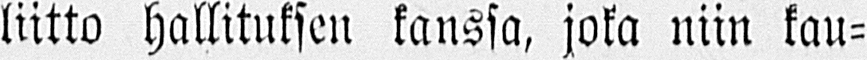liitto hallituksen kanssa, joka niin kau-
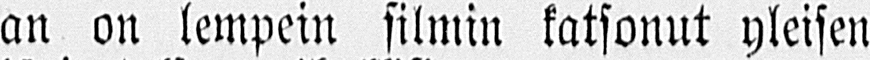an on lempein silmin katsonut yleisen
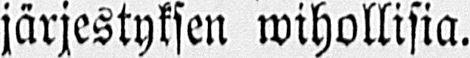järjestyksen wihollisia.
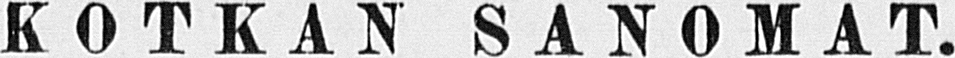KOTKAN SANOMAT.
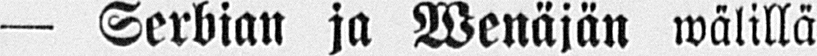— Serbian ja Wenäjän wälillä
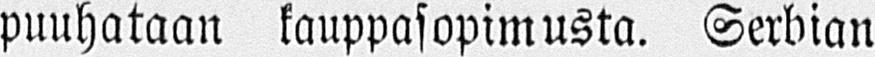puuhataan kauppasopimusta. Serbian
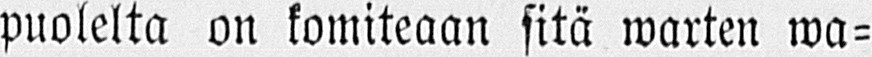puolelta on komiteaan sitä warten wa-
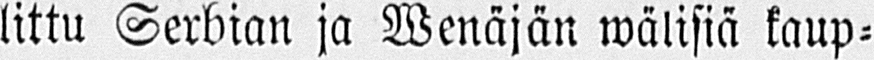littu Serbian ja Wenäjän wälisiä kaup-
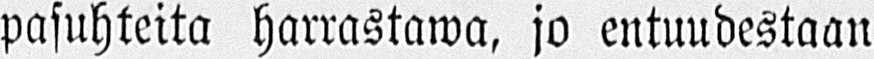pasuhteita harrastawa, jo entuudestaan
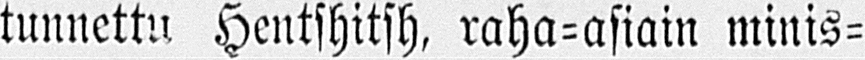tunnettu Hentshitsh, raha-asiain minis-
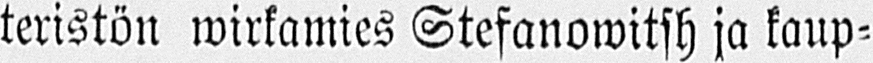teristön wirkamies Stefanowitsh ja kaup-
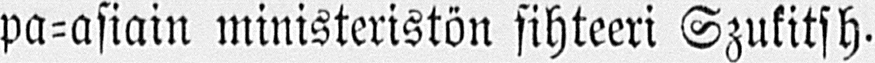pa-asiain ministeristön sihteeri Szukitsh-
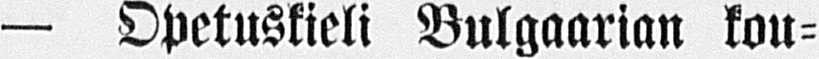— Opetuskieli Bulgaarian kou-
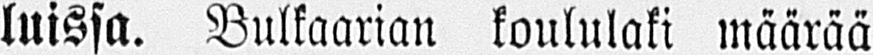luissa. Bulkaarian koululaki määrää
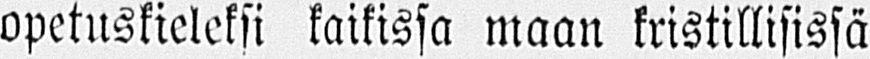opetuskieleksi kaikissa maan kristillisissä
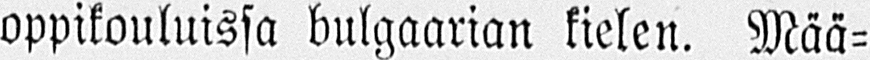oppikouluissa bulgaarian kielen. Mää-
